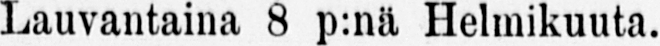Lauvantaina 8 p:nä Helmikuuta.
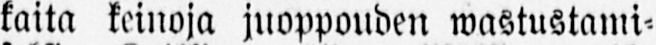kaita keinoja juoppouden wastustami-
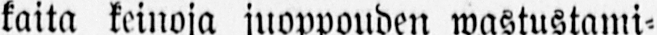seksi. Kaikkien näiden lisäksi on aika
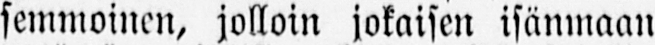semmoinen, jolloin jokaisen isänmaan
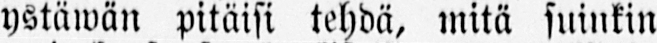ystäwän pitäisi tehdä, mitä suinkin
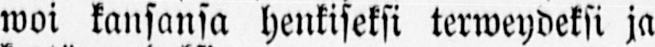woi kansansa henkiseksi terweydeksi ja
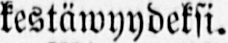kestäwyydeksi.
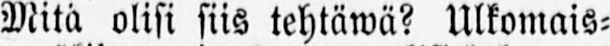Mitä olisi siis tehtäwä? Ulkomais-
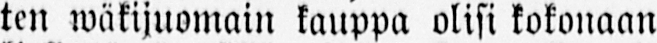ten wäkijuomain kauppa olisi kokonaan
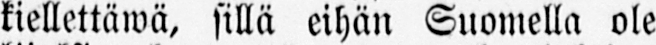kiellettäwä, sillä eihän Suomella ole
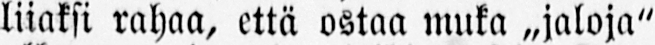liiaksi rahaa, että ostaa muka ˶jaloja"
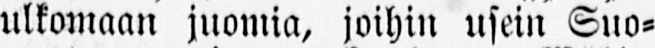ulkomaan juomia, joihin usein Suo-
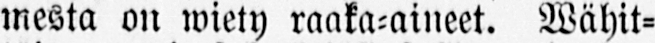mesta on wiety raaka-aineet. Wähit-
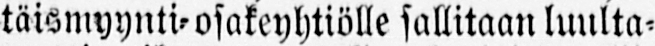täismyynti-osakeyhtiölle sallitaan luulta-
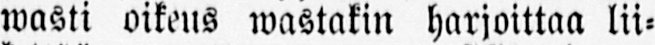wasti oikeus wastakin harjoittaa lii-
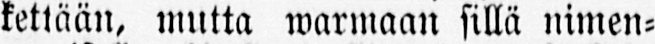kettään, mutta warmaan sillä nimen-
